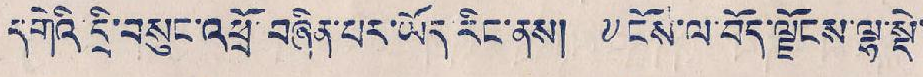དགེའི་དྲི་བསུང་འཕྲོ་བཞིན་པར་ཡོད རིང་ནས། ༸ངོས་ལ་བོད་ལྗོངས་ལྷ་སྡེ་
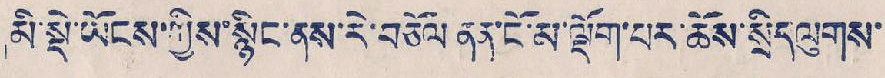མི་སྡེ་ཡོངས་ཀྱིས་སྙིང་ནས་རེ་བཅོལ ནན་ངོ་མ་ལྡོག་པར་ཆོས་སྲིད་ལུགས་
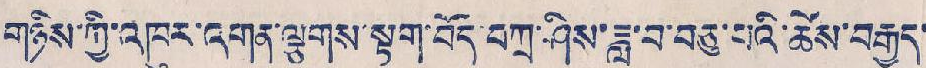གཉིས་ཀྱི་འཁུར་འགན་ལྕགས་སྟག་བོད་བཀྲ་ཤིས་ཟླ་བ་བཅུ་པའི་ཆོས་བརྒྱད་
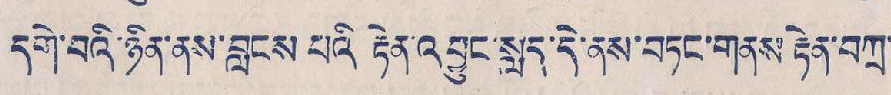དགེ་བའི་ཉིན་ནས་བླངས པའི རྟེན་འབྱུང་སླད་དེ་ནས་བཏང་གནས་རྟེན་བཀྲ་
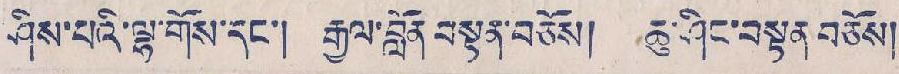ཤིས་པའི་ལྷ་གོས་དང་། རྒྱལ་བློན བསྟན་བཅོས། ཆུ་ཤིང་བསྟན བཅོས།
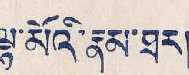ལྷ་མོའི་རྣམ་ཐར།
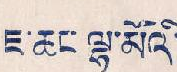ཇ་ཆང་ལྷ་མོའི་
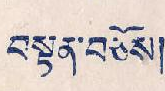བསྟན་བཅོས།
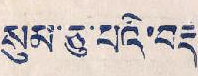སུམ་ཅུ་པའི་བརྡ་
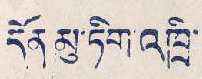དོན མུ་ཏིག འཁྲི་
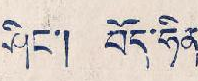ཤིང་། བོད་ཧིན་
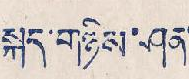སྐད་གཉིས་ཤན་
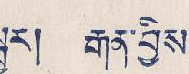སྦྱར། རྒན་བྱིས་
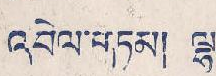འབེལ་གཏམ། ལྷ་
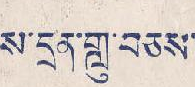ས་དྲན་གླུ་བཅས་
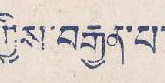ཀྱིས་བརྒྱན་པ་
